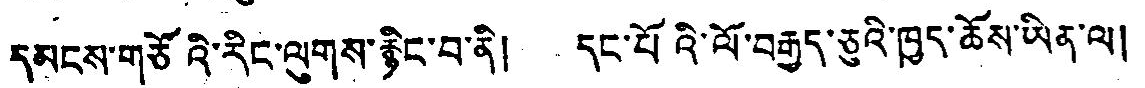དམངས་གཙོའི་རིང་ལུགས་རྙིང་བ་ནི། དང་པོའི་ལོ་བརྒྱད་ཅུའི་ཁྱད་ཆོས་ཡིན་ལ།
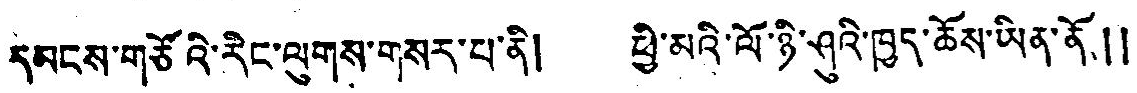དབུངས་གཙོའི་རིང་ལུགས་གསར་པ་ནི། ཕྱི་མའི་ལོ་ཉི་ཤུའི་ཁྱད་ཆོས་ཡིན་ནོ།།
